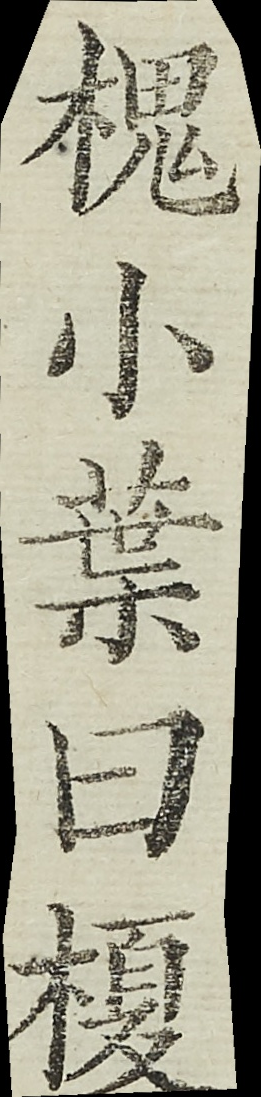槐小葉曰榎
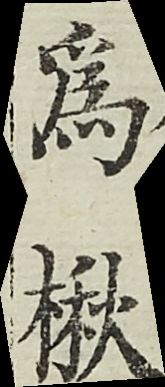為楸
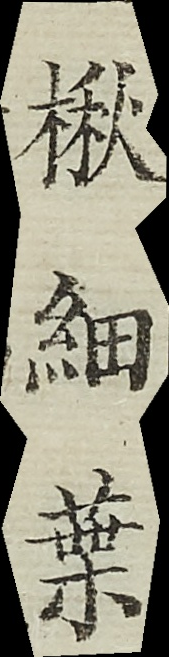楸細葉
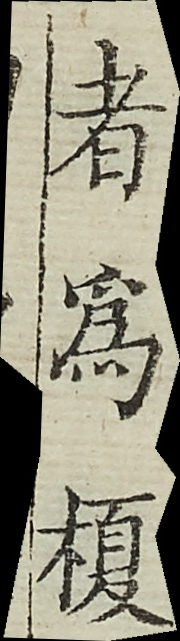者為榎
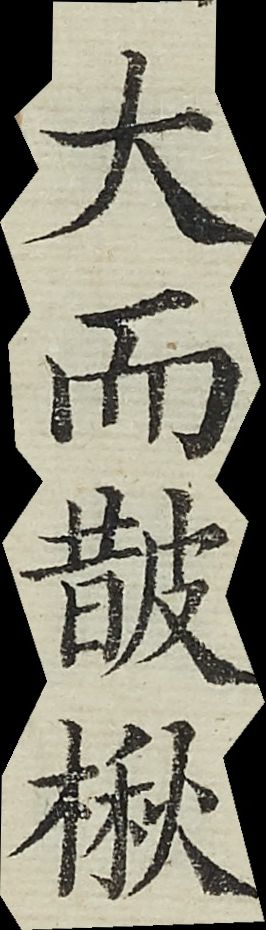大而皵楸
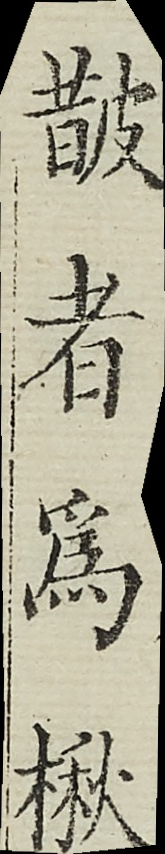皵者為楸
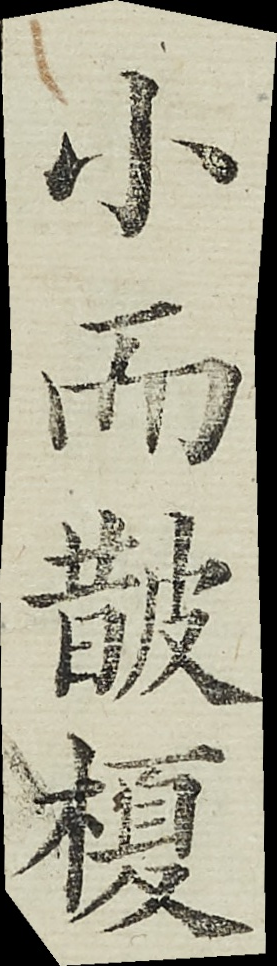小而皵榎
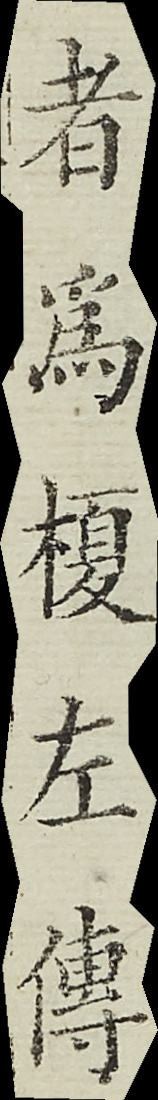者為榎左傳
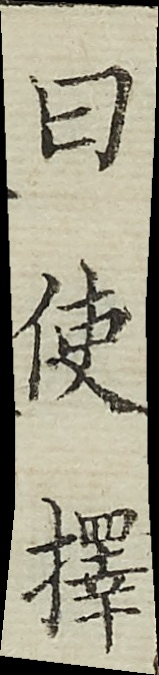曰使擇
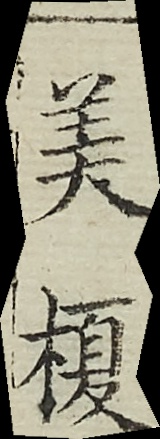美榎
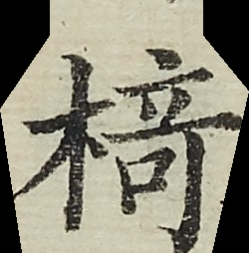椅
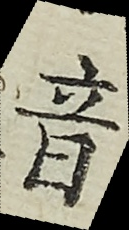音
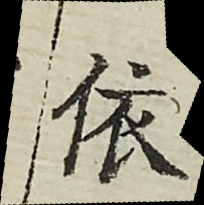依
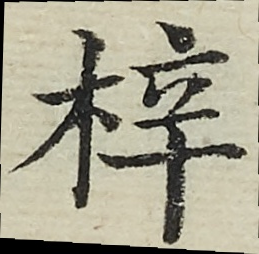梓
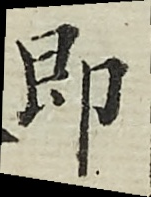即
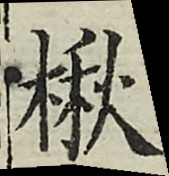楸
